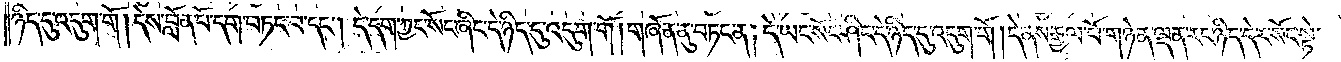ཉིད་དུ་འདུག་གོ ། དེས་བློན་པོ་དག་བཏང་བ་དང༌། དེ་དག་ཀྱང་སོང་ཞིང་དེ་ཉིད་དུ་འདུག་གོ ། གཞོན་ནུ་བཏང་ན། དེ་ཡང་སོང་ཤིང་དེ་ཉིད་དུ་འདུག་གོ ། དེ་ནས་རྒྱལ་པོ་གཉེན་ལྡན་རང་ཉིད་དེར་སོང་སྟེ་
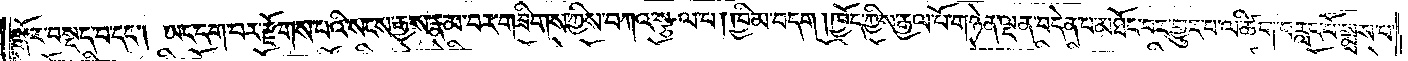སྒོར་བསྡད་པ་དང༌། ཡང་དག་པར་རྫོགས་པའི་སངས་རྒྱས་རྣམ་པར་གཟིགས་ཀྱིས་བཀའ་སྩལ་པ། ཁྱིམ་བདག །ཁྱོད་ཀྱིས་རྒྱལ་པོ་གཉེན་ལྡན་བདེན་པ་མཐོང་བར་གྱུར་པ་ལ་ཚིག་བརླང་པོ་སྨྲས་པ་
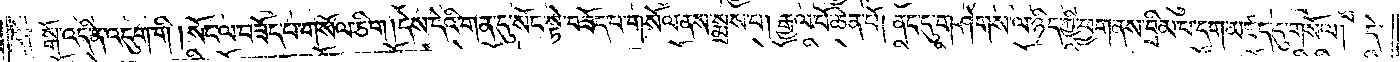དེ༑ སྒོ་འདི་ན་འདུག་གི །སོང་ལ་བཟོད་པ་གསོལ་ཅིག །དེས་དེའི་གན་དུ་སོང་སྟེ་བཟོད་པ་གསོལ་ནས་སྨྲས་པ། རྒྱལ་པོ་ཆེན་པོ། ནང་དུ་གཤེགས་ལ་ཉིད་ཀྱི་ཕྱག་ནས་བྲིམ་པ་དག་མཛད་དུ་གསོལ། དེ་
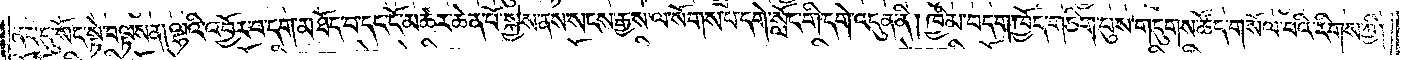ནང་དུ་སོང་སྟེ་བལྟས་ན། ལྷའི་འབྱོར་བ་དག་མཐོང་བ་དང་ངོ་མཚར་ཆེན་པོ་སྐྱེས་ནས་སངས་རྒྱས་ལ་སོགས་པ་དགེ་སློང་གི་དགེ་འདུན་ནི། ཁྱིམ་བདག་ཁྱོད་གཅིག་པུས་གདུགས་ཚོད་གསོལ་བའི་རིགས་ཀྱི།
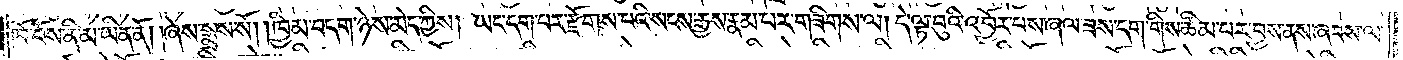ཁོ་བོས་ནི་མ་ཡིན་ནོ། །ཞེས་སྨྲས་སོ། །ཁྱིམ་བདག་ཉེས་མེད་ཀྱིས། ཡང་དག་པར་རྫོགས་པའི་སངས་རྒྱས་རྣམ་པར་གཟིགས་ལ། དེ་ལྟ་བུའི་འབྱོར་པས་ཞལ་ཟས་དག་གིས་ཚིམ་པར་བྱས་ནས་ཞབས་ལ་
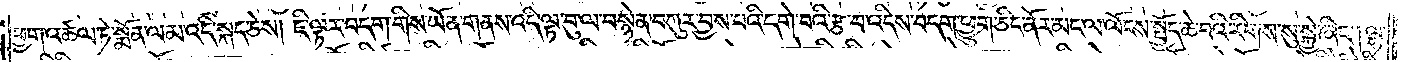ཕྱག་འཚལ་ཏེ་སྨོན་ལམ་འདི་སྐད་ཅེས། ཇི་ལྟར་བདག་གིས་ཡོན་གནས་འདི་ལྟ་བུ་ལ་བསྙེན་བཀུར་བྱས་པའི་དགེ་བའི་རྩ་བ་འདིས་བདག་ཕྱུག་ཅིང་ནོར་མང་ལ་ལོངས་སྤྱོད་ཆེ་བའི་རིགས་སུ་སྐྱེ་ཞིང༌། ལྷ་
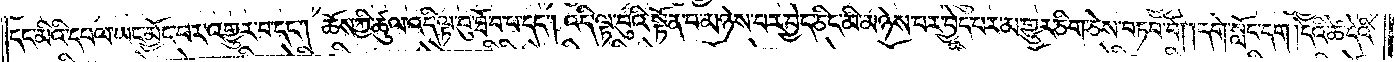དང་མིའི་དཔལ་ཡང་མྱོང་བར་འགྱུར་བ་དང༌། ཆོས་ཀྱི་ཚུལ་འདི་ལྟ་བུ་ཐོབ་པ་དང༌། འདི་ལྟ་བུའི་སྟོན་པ་མཉེས་པར་བྱེད་ཅིང་མི་མཉེས་པར་བྱེད་པར་མ་གྱུར་ཅིག་ཅེས་བཏབ་བོ། དགེ་སློང་དག །དེའི་ཚེ་དེའི་
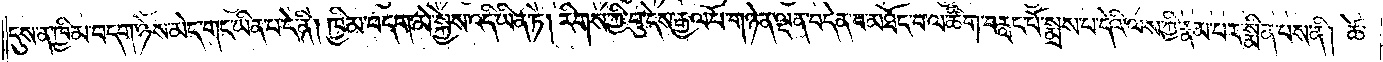དུས་ན་ཁྱིམ་བདག་ཉེས་མེད་གང་ཡིན་པ་དེ་ནི། ཁྱིམ་བདག་མེ་སྐྱེས་འདི་ཡིན་ཏེ། རིགས་ཀྱི་བུ་དེས་རྒྱལ་པོ་གཉེན་ལྡན་བདེན་པ་མཐོང་བ་ལ་ཚིག་བརླང་པོ་སྨྲས་པ་དེའི་ལས་ཀྱི་རྣམ་པར་སྨིན་པས་ནི། ཚེ་
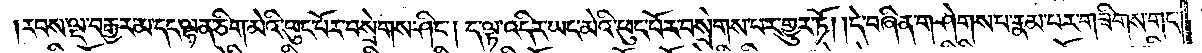རབས་ལྔ་བརྒྱར་མ་དང་ལྷན་ཅིག་མེའི་ཕུང་པོར་བསྲེགས་ཤིང༌། ད་ལྟ་འདིར་ཡང་མེའི་ཕུང་པོར་བསྲེགས་པར་གྱུར་ཏོ། །དེ་བཞིན་གཤེགས་པ་རྣམ་པར་གཟིགས་གང་
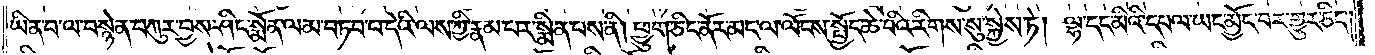ཡིན་པ་ལ་བསྙེན་བཀུར་བྱས་ཤིང་སྨོན་ལམ་བཏབ་པ་དེའི་ལས་ཀྱི་རྣམ་པར་སྨིན་པས་ནི། ཕྱུག་ཅིང་ནོར་མང་ལ་ལོངས་སྤྱོད་ཆེ་བའི་རིགས་སུ་སྐྱེས་ཏེ། ལྷ་དང་མིའི་དཔལ་ཡང་མྱོང་བར་གྱུར་ཅིང༌།
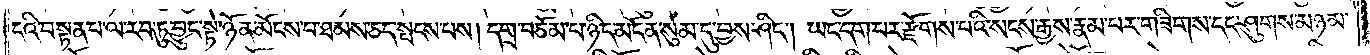ངའི་བསྟན་པ་ལ་རབ་ཏུ་བྱུང་སྟེ་ཉོན་མོངས་པ་ཐམས་ཅད་སྤངས་པས། དགྲ་བཅོམ་པ་ཉིད་མངོན་སུམ་དུ་བྱས་ཤིང༌། ཡང་དག་པར་རྫོགས་པའི་སངས་རྒྱས་རྣམ་པར་གཟིགས་དང་ཤུགས་མཉམ་
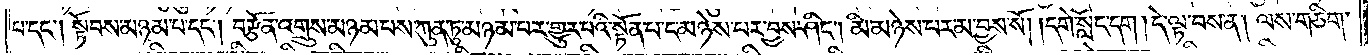པ་དང༌། སྟོབས་མཉམ་པ་དང༌། བརྩོན་འགྲུས་མཉམ་པས་ཀུན་ཏུ་མཉམ་པར་གྱུར་པའི་སྟོན་པ་ང་མཉེས་པར་བྱས་ཤིང༌། མི་མཉེས་པར་མ་བྱས་སོ། །དགེ་སློང་དག །དེ་ལྟ་བས་ན། ལས་གཅིག་
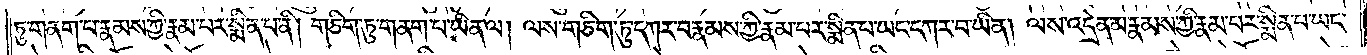ཏུ་གནག་པར་རྣམས་ཀྱི་རྣམ་པར་སྨིན་པ་ནི། གཅིག་ཏུ་གནག་པ་ཡིན་ལ། ལས་གཅིག་ཏུ་དཀར་བ་རྣམས་ཀྱི་རྣམ་པར་སྨིན་པ་ཡང་དཀར་བ་ཡིན། །ལས་འདྲེན་མ་རྣམས་ཀྱི་རྣམ་པར་སྨིན་པ་ཡང་
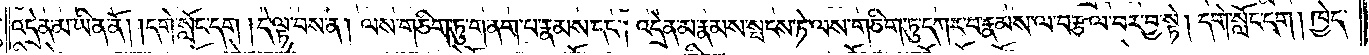འདྲེན་མ་ཡིན་ནོ། །དགེ་སློང་དག །དེ་ལྟ་བས་ན། ལས་གཅིག་ཏུ་གནག་པ་རྣམས་དང༌། འདྲེན་མ་རྣམས་སྤངས་ཏེ་ལས་གཅིག་ཏུ་དཀར་བ་རྣམས་ལ་བརྩལ་བར་བྱ་སྟེ། དགེ་སློང་དག །ཁྱེད་
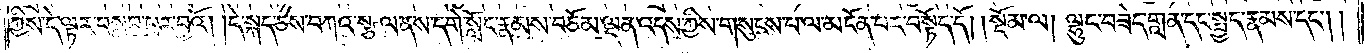ཀྱིས་དེ་ལྟར་བསླབ་པར་བྱའོ། །དེ་སྐད་ཅེས་བཀའ་སྩལ་ནས་དགེ་སློང་རྣམས་བཅོམ་ལྡན་འདས་ཀྱིས་གསུངས་པ་ལ་མངོན་པར་བསྟོད་དོ།    །སྡོམ་ལ། ལྷུང་བཟེད་གླན་དང་སྤྱད་རྣམས་དང༌། །
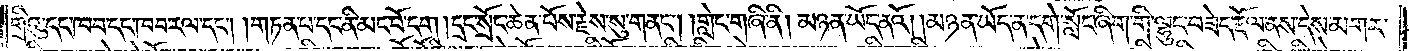གྲིའུ་དང་ཁབ་དང་ཁབ་རལ་དང༌། །གཏན་པ་དང་ནི་མང་པོ་དག །དྲང་སྲོང་ཆེན་པོས་རྗེས་སུ་གནང༌། །གླེང་གཞི་ནི། མཉན་ཡོད་ནའོ། །མཉན་ཡོད་ན་དགེ་སློང་ཞིག་གི་ལྷུང་བཟེད་རྡོལ་ནས་དེས་མགར་
